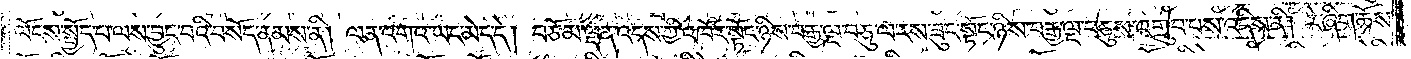ལོངས་སྤྱོད་པ་ལས་བྱུང་བའི་བསོད་ནམས་ནི། ལན་འགའ་ཡང་མེད་དེ། བཅོམ་ལྡན་འདས་ཀྱི་འཁོར་སྟོང་ཉིས་བརྒྱ་ལྔ་བཅུ་ལ་རས་ཟུང་སྟོང་ཉིས་བརྒྱ་ལྔ་བཅུས་འགྲུབ་པས་འདིས་ནི། རེ་ཞིག་ཆོས་
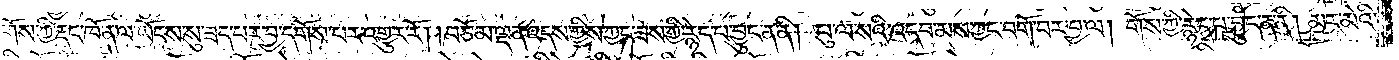གོས་ཀྱི་རྡང་ཁོ་ན་ལ་ཡོངས་སུ་ཟད་པར་བྱ་དགོས་པར་འགྱུར་རོ། །བཅོམ་ལྡན་འདས་ཀྱིས་ཀྱང་ཟས་ཀྱི་རྙེད་པ་བྱུང་ན་ནི། པུ་ལ་སའི་འདབ་མས་ཀྱང་བགོ་བར་བྱ་ལ། གོས་ཀྱི་རྙེད་པ་བྱུང་ན་ནི། མར་མེའི་
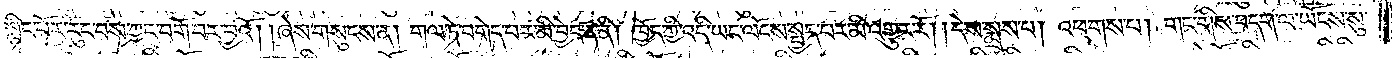སྙིང་པོར་རུང་བས་ཀྱང་བགོ་བར་བྱའོ། །ཞེས་གསུངས་ན། གལ་ཏེ་བགེད་པར་མི་བྱེད་ན་ནི། ཁྱོད་ཀྱི་འདི་ཡང་ལོངས་སྤྱད་པར་མི་འགྱུར་རོ། །དེས་སྨྲས་པ། འཕགས་པ། གང་གིས་བདག་ལ་ཡོངས་སུ་
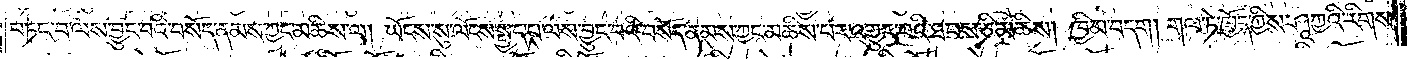བཏང་བ་ལས་བྱུང་བའི་བསོད་ནམས་ཀྱང་མཆིས་ལ། ཡོངས་སུ་ལོངས་སྤྱད་པ་ལས་བྱུང་བའི་བསོད་ནམས་ཀྱང་མཆིས་པར་འགྱུར་བའི་ཐབས་ཅི་མཆིས། ཁྱིམ་བདག། གལ་ཏེ་ཁྱོད་ཀྱིས་ཤཱཀྱའི་རིགས་
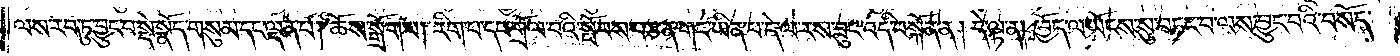ལས་རབ་ཏུ་བྱུང་བ་སྡེ་སྣོད་གསུམ་དང་ལྡན་པ། ཆོས་སྒྲོག་པ། རིག་པ་དང་གྲོལ་བའི་སྤོབས་པ་ཅན་གང་ཡིན་པ་དེ་ལ་རས་ཟུང་འདི་བསྐོན་ན། དེ་ལྟ་ན། ཁྱོད་ལ་ཡོངས་སུ་བཏང་བ་ལས་བྱུང་བའི་བསོད་
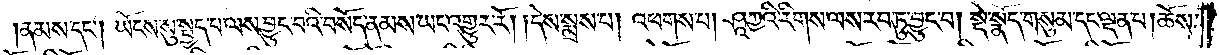ནམས་དང༌། ཡོངས་སུ་སྤྱད་པ་ལས་བྱུང་བའི་བསོད་ནམས་ཡང་འགྱུར་རོ། །དེས་སྨྲས་པ། འཕགས་པ། ཤཱཀྱའི་རིགས་ལས་རབ་ཏུ་བྱུང་བ། སྡེ་སྣོད་གསུམ་དང་ལྡན་པ། ཆོས་
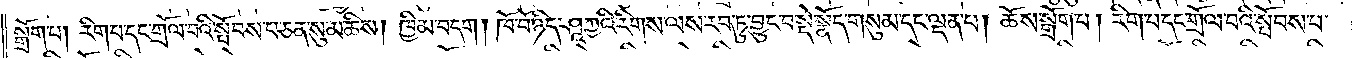སྒྲོག་པ། རིག་པ་དང་གྲོལ་བའི་སྤོབས་པ་ཅན་སུ་མཆིས། ཁྱིམ་བདག། ཁོ་བོ་ཉིད་ཤཱཀྱའི་རིགས་ལས་རབ་ཏུ་བྱུང་བ་སྡེ་སྣོད་གསུམ་དང་ལྡན་པ། ཆོས་སྒྲོག་པ། རིག་པ་དང་གྲོལ་བའི་སྤོབས་པ་
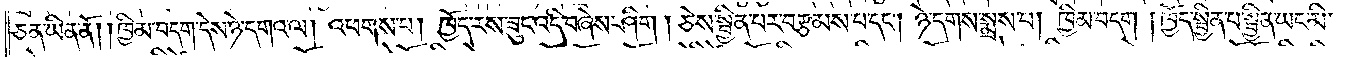ཅན་ཡིན་ནོ། །ཁྱིམ་བདག་དེས་ཉེ་དགའ་ལ། འཕགས་པ། ཁྱོད་རས་ཟུང་འདི་བཞེས་ཤིག །ཅེས་སྦྱིན་པར་བརྩམས་པ་དང༌། ཉེ་དགས་སྨྲས་པ། ཁྱིམ་བདག །ཁྱོད་སྦྱིན་པ་ཡིན་ཡང་མི་
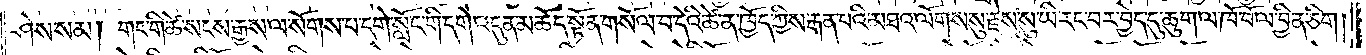ཤེས་སམ། གང་གི་ཚེ་སངས་རྒྱས་ལ་སོགས་པ་དགེ་སློང་གི་དགེ་འདུན་མཆོད་སྟོན་གསོལ་བ་དེའི་ཚེ་ན་ཁྱོད་ཀྱིས་རྒན་པའི་མཐའ་ལོགས་སུ་རྗེས་སུ་ཡི་རང་བར་བྱེད་དུ་ཆུག་ལ་ཁོ་བོ་ལ་བྱིན་ཅིག།
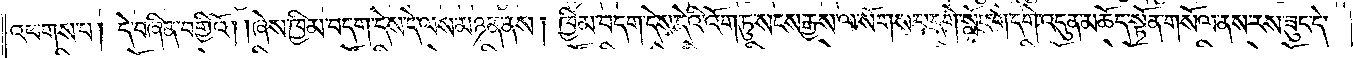འཕགས་པ། དེ་བཞིན་བགྱིའོ། །ཞེས་ཁྱིམ་བདག་དེས་དེ་ལས་མཉན་ནས། ཁྱིམ་བདག་དེས་དེའི་འོག་ཏུ་སངས་རྒྱས་ལ་སོགས་པ་དགེ་སློང་གི་དགེ་འདུན་མཆོད་སྟོན་གསོལ་ནས་རས་ཟུང་དེ་
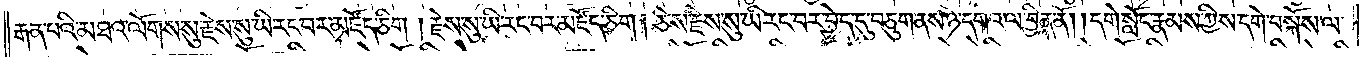རྒན་པའི་མཐའ་ལོགས་སུ་རྗེས་སུ་ཡི་རང་བར་མཛོད་ཅིག །རྗེས་སུ་ཡི་རང་བར་མཛོད་ཅིག། ཅེས་རྗེས་སུ་ཡི་རང་བར་བྱེད་དུ་བཅུག་ནས་ཉེ་དགའ་ལ་བྱིན་ནོ། །དགེ་སློང་རྣམས་ཀྱིས་དགེ་བསྐོས་ལ་
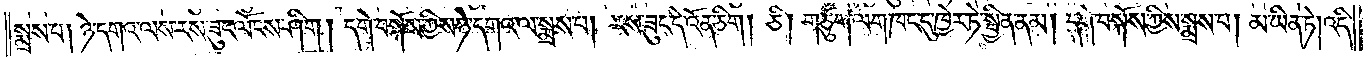སྨྲས་པ། ཉེ་དགའ་ལས་རས་ཟུང་ལོངས་ཤིག། དག་བསྐོས་ཀྱིས་ཉེ་དགའ་ལ་སྨྲས་པ། རས་ཟུང་དེ་འོན་ཅིག། ཅི། གཙུག་ལག་ཁང་དུ་ཁྱེར་ཏེ་སྦྱིན་ནམ། དགེ་བསྐོས་ཀྱིས་སྨྲས་པ། མ་ཡིན་ཏེ། འདི་
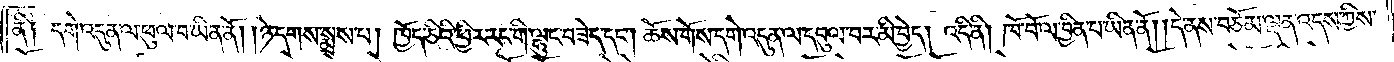ནི༑ དགེ་འདུན་ལ་ཕུལ་བ་ཡིན་ནོ། །ཉེ་དགས་སྨྲས་པ། ཁྱོད་ཅིའི་ཕྱིར་རང་གི་ལྷུང་བཟེད་དང༌། ཆོས་གོས་དགེ་འདུན་ལ་དབུལ་བར་མི་བྱེད། འདི་ནི། ཁོ་བོ་ལ་བྱིན་པ་ཡིན་ནོ། །དེ་ནས་བཅོམ་ལྡན་འདས་ཀྱིས་
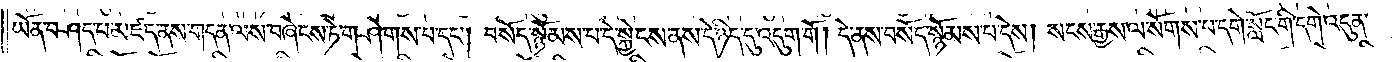ཡོན་བཤད་པ་མཛད་ནས་གདན་ལས་བཞེངས་ཏེ་གཤེགས་པ་དང༌། བསོད་སྙོམས་པ་དེ་སྐྱེངས་ནས་དེ་ཉིད་དུ་འདུག་གོ། དེ་ནས་བསོད་སྙོམས་པ་དེས། སངས་རྒྱས་སོགས་པ་དགེ་སློང་གི་དགེ་འདུན་
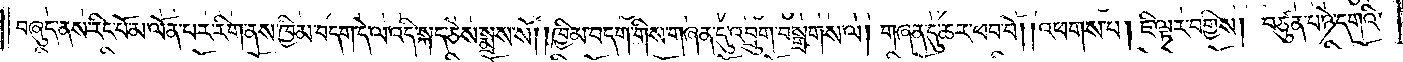བཞུད་ནས་རིང་པོ་མ་ལོན་པར་རིག་ནས་ཁྱིམ་བདག་དེ་ལ་འདི་སྐད་ཅེས་སྨྲས་སོ། །ཁྱིམ་བདག་གིས་གཞན་དུ་འབྲུག་བསྒྲགས་ལ། གཞན་དུ་ཆར་ཕབ་བོ། །འཕགས་པ། ཇི་ལྟར་བགྱིས། བཙུན་པ་ཉེ་དགའི་
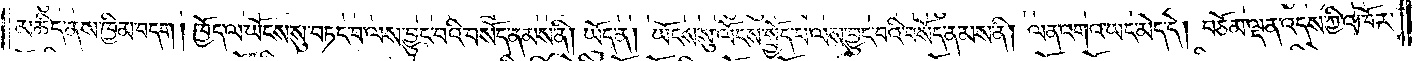མཆིད་ནས་ཁྱིམ་བདག །ཁྱོད་ལ་ཡོངས་སུ་བཏང་བ་ལས་བྱུང་བའི་བསོད་ནམས་ནི། ཡོད་ན། ཡོངས་སུ་ལོངས་སྤྱོད་པ་ལས་བྱུང་བའི་བསོད་ནམས་ནི། ལན་འགའ་ཡང་མེད་དེ། བཅོམ་ལྡན་འདས་ཀྱིས་འཁོར་
